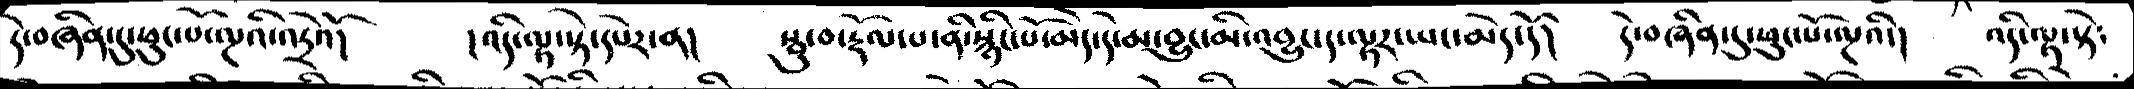དེ་བཞིན་དུ་ཕུང་པོ་ལྔའི་འདྲེའོ།   །འདི་ལྟ་སྟེ་དཔེར་ན།   སྦུ་བ་རྡོལ་པ་ནི་སྙིང་པོ་མེད་དེ་མ་བྱུང་མི་འབྱུང་ད་ལྟར་ཡང་མེད་དོ།   དེ་བཞིན་དུ་ཕུང་པོ་ལྔའི་།   འདི་ལྟ་སྟེ༴
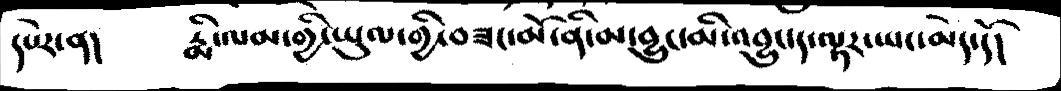དཔེར་ན།   རྨི་ལམ་གྱི་ཡུལ་གྱི་བཟང་མོ་ནི་མ་བྱུང་མི་འབྱུང་ད་ལྟར་ཡང་མེད་དོ།
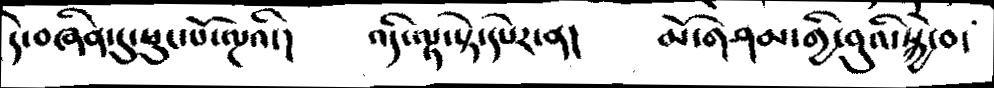དེ་བཞིན་དུ་ཕུང་པོ་ལྔའི་།    འདི་ལྟ་སྟེ་དཔེར་ན།    མོ་གཤམ་གྱི་བུའི་སྐྱེ་བ་
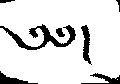༄༅།
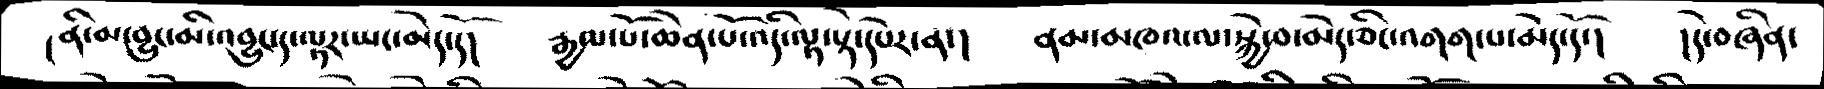།ནི་མ་བྱུང་མི་འབྱུང་ད་ལྟར་ཡང་མེད་དོ།   རྒྱལ་པོ་ཆེན་པོ་འདི་ལྟར་སྟེ་དཔེར་ན་།   ནམ་མཁའ་ལ་སྐྱེ་བ་མེད་ཅིང་འགག་པ་མེད་དོ་།   །དེ་བཞིན་
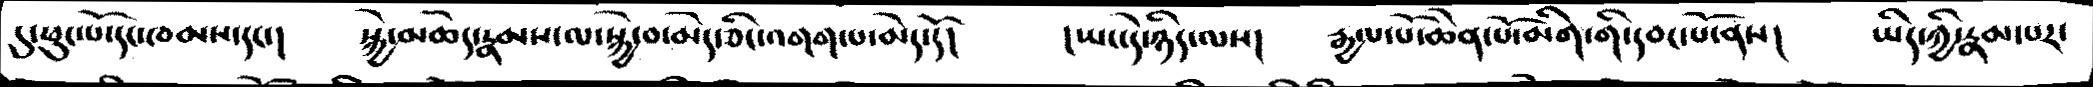དུ་ཕུང་པོ་དང་ཁམས་དང་།   སྐྱེ་མཆེད་རྣམས་ལ་སྐྱེ་བ་མེད་ཅིང་འགག་པ་མེད་དོ།   །ཡང་དེ་ཉིད་ལས།    རྒྱལ་པོ་ཆེན་པོ་མིག་གི་དབང་པོ་ནས།   ཡིད་ཀྱི་རྣམ་པར་
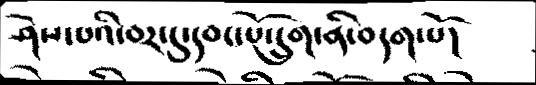ཤེས་པའི་བར་དུ་དབང་པོ་དྲུག་ནི་བདག་པོ།
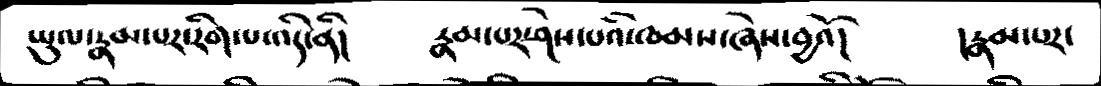ཡུལ་རྣམ་པར་རིག་པ་འདི་ནི།    རྣམ་པར་ཤེས་པའི་ཁམས་ཞེས་བྱའོ།      །རྣམ་པར་
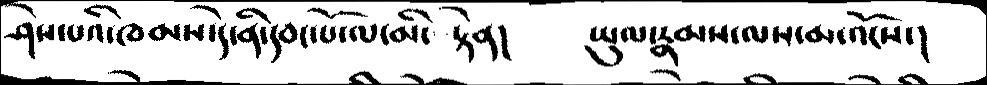ཤེས་པའི་ཁམས་དེ་ནི་དབང་པོ་ལ་མི་  སྟེན།       ཡུལ་རྣམས་ལས་མ་འོངས་།
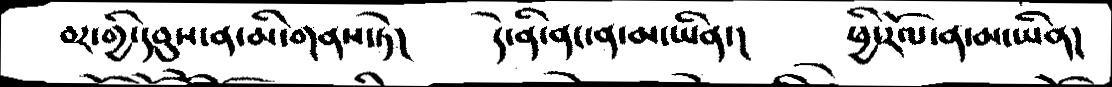བར་གྱི་དབུས་ན་མི་གནས་ཏེ།    དེ་ནི་ནང་ན་མ་ཡིན་།       ཕྱི་རོལ་ན་མ་ཡིན།
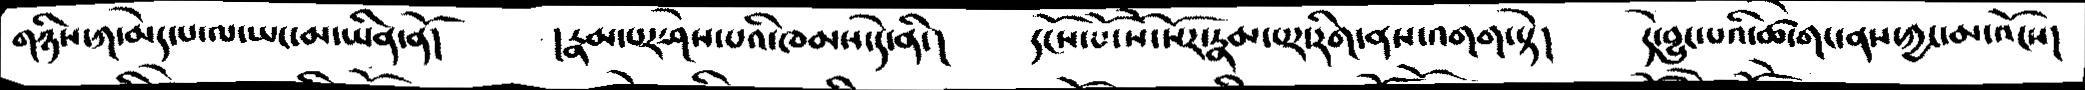གཉིས་ཀ་མེད་པ་ལ་ཡང་མ་ཡིན་ནོ།     །རྣམ་པར་ཤེས་པའི་ཁམས་དེ་ནི་།     དངོས་པོ་སོ་སོར་རྣམ་པར་རིག་ནས་འགག་སྟེ།     དེ་བྱུང་པའི་ཚེ་གང་ནས་ཀྱང་མ་འོངས།
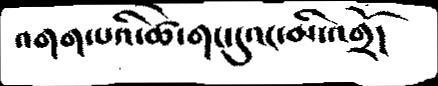འགག་པའི་ཚེ་གང་དུའང་མི་འགྲོ།
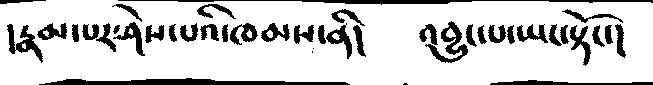།རྣམ་པར་ཤེས་པའི་ཁམས་ནི།    འབྱུང་པ་ཡང་སྟོང་།
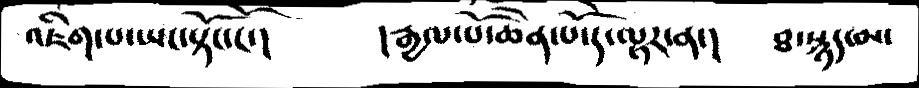འཇིག་པ་ཡང་སྟོང་ངོ་།    །རྒྱལ་པོ་ཆེན་པོ་དེ་ལྟར་ན་།   ཐ་སྙད་མ་
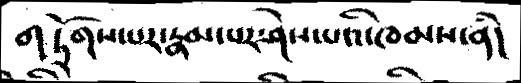གཏོགས་པར་རྣམ་པར་ཤེས་པའི་ཁམས་ནི།
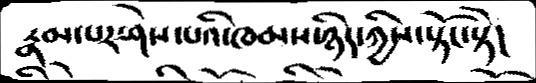རྣམ་པར་ཤེས་པའི་ཁམས་ཉིད་ཀྱིས་སྟོང་སྟེ།
